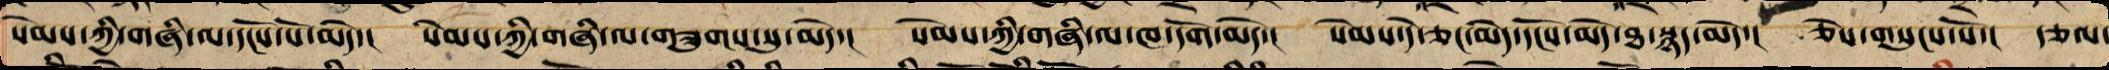སེམས་ཀྱི་གཞི་ལ་དངོས་པོ་མེད་། སེམས་ཀྱི་གཞི་ལ་གཟུགས་སུ་མེད་། སེམས་ཀྱི་གཞི་ལ་ཁ་དོག་མེད་། སེམས་དེ་ཅང་མེད་དངོས་མེད་ཐ་སྙད་མེད་། ཅེས་གསུངས་སོ་། རྩལ་
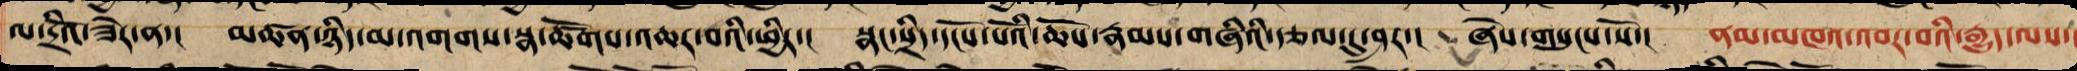ལ་དྲིའོ་ཟེར་བ་ན་། མཚན་ཉིད་མ་འགགས་སྣ་ཚོགས་འཆར་བའི་ཕྱིར་། སྣང་སྲིད་དངོས་པོའི་ཆོས་རྣམས་གཞིའི་རྩལ་དུ་ཤར་། ཞེས་གསུངས་སོ་། ནམ་མཁའ་འབར་བའི་རྒྱུད་ལས་།
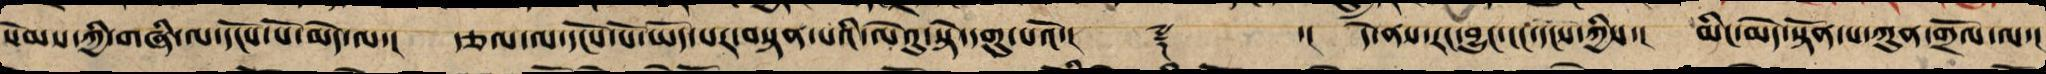སེམས་ཀྱི་གཞི་ལ་དངོས་པོ་མེད་ལ་། རྩལ་ལ་དངོས་པོ་ཡོད་པར་བསྟན་པའི་ལེའུ་སྟེ་དགུ་པའོ་།། ༈ ་།། དེ་ནས་རང་བྱུང་ངང་དངས་ཀྱིས་། མིང་མེད་སྟོན་པ་ཀུན་གྲོལ་ལ་།
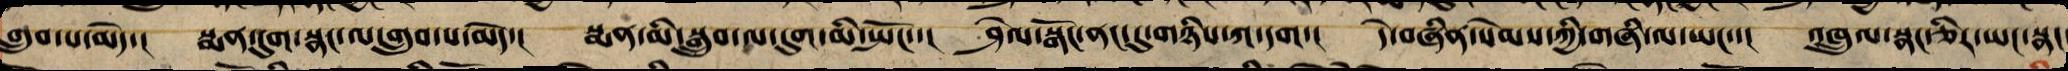གྲུབ་པ་མེད་། སྨན་དུག་སྣང་ལ་གྲུབ་པ་མེད་། སྨན་མི་བསྒྲུབ་ལ་དུག་མི་སྤོང་་། ཤེལ་སྒོང་ནང་དུ་གཉིས་ཀ་དག་། དེ་བཞིན་སེམས་ཀྱི་གཞི་ལ་ཡང་་། འཁྲུལ་སྣང་ཅིར་ཡང་སྣང་
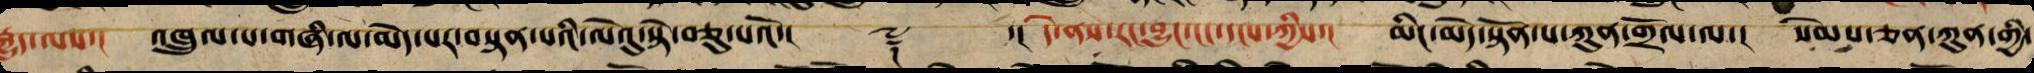རྒྱུད་ལས་། འཁྲུལ་པ་གཞི་ལ་མེད་པར་བསྟན་པའི་ལེའུ་སྟེ་བཅུ་པའོ་།། ༈ ་།། དེ་ནས་རང་བྱུང་ངང་དངས་ཀྱིས་། མིང་མེད་སྟོན་པ་ཀུན་གྲོལ་ལ་། སེམས་ཅན་ཀུན་གྱི་
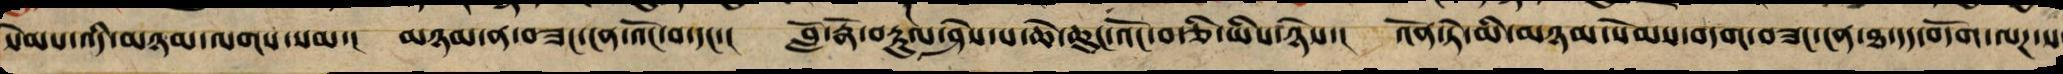སེམས་འདི་མཉམ་ལགས་སམ་། མཉམ་ན་བཟང་ངན་འོང་བ་དང་་། བློ་རྣོ་རྟུལ་ཤེས་པ་ཆེ་ཆུང་འོང་བ་ཅི་ཡིས་ཉེས་། འོན་ཏེ་མི་མཉམ་སེམས་བདག་བཟང་ངན་ཐ་དད་བདོག་ལཌ་ས
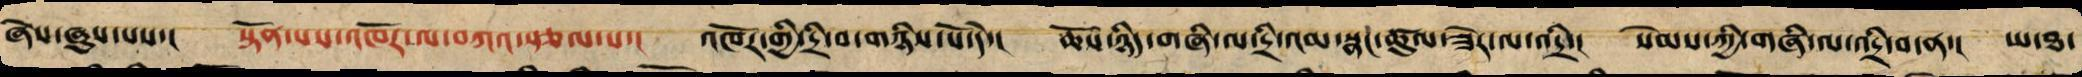ཞེས་ཞུས་པས་། སྟོན་པས་འཁོར་ལ་བཀའ་སྩལ་པ་། འཁོར་གྱི་དྲི་བ་གཉིས་པོ་དེ་། ཆོས་ཉིད་གཞི་ལ་དྲི་འམ་སྣང་ཚུལ་ཟེར་ལ་འདྲི་། སེམས་ཀྱི་གཞི་ལ་འདྲི་བ་ན་། ཡ་ཐ་
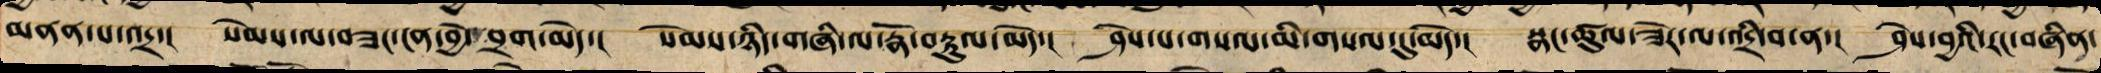མནན་པ་འདྲ་། སེམས་ལ་བཟང་ངན་བྱེ་བྲག་མེད་། སེམས་ཉིད་གཞི་ལ་རྣོ་རྟུལ་མེད་། ཤེས་པ་གསལ་མི་གསལ་དུ་མེད་། སྣང་ཚུལ་ཟེར་ལ་འདྲི་བ་ན་། ཤེས་བྱའི་རང་བཞིན་
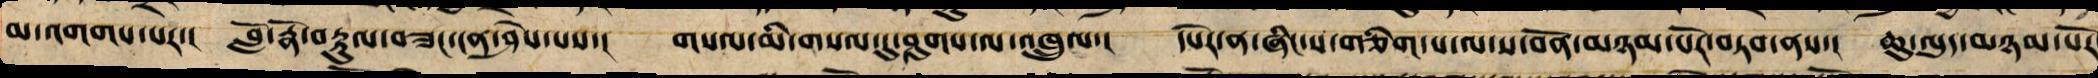མ་འགགས་པར་། བློ་རྣོ་བརྟུལ་བཟང་ངན་ཤེས་པས་། གསལ་མི་གསལ་དུ་ཤུགས་ལས་འཁྲུལ་། དཔེར་ན་ཞིང་ས་གཅིག་པ་ལ་ས་བོན་མཉམ་པོར་བཏབ་ནས་། ཆུ་ལུད་མཉམ་པོར
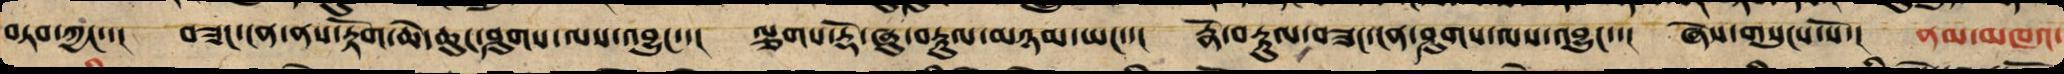བཏབ་ཀྱང་་། བཟང་ངན་ནས་རྟོག་ཆེ་ཆུང་ཤུགས་ལས་འབྱུང་་། ལྕགས་རྡོ་ཞུ་བརྡུལ་མཉམ་ཡང་་། རྣོ་བརྟུལ་བཟང་ངན་ཤུགས་ལས་འབྱུང་་། ཞེས་གསུངས་སོ་། ནམ་མཁའ་
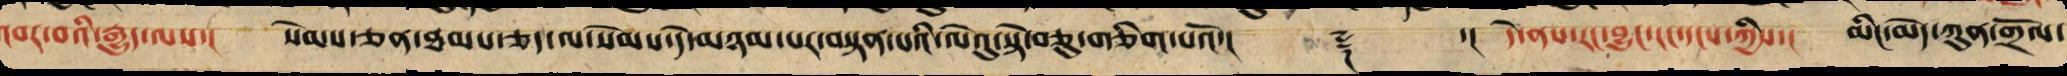འབར་བའི་རྒྱུད་ལས་། སེམས་ཅན་ཐམས་ཅད་ལ་སེམས་དེ་མཉམ་པར་བསྟན་པའི་ལེའུ་སྟེ་བཅུ་གཅིག་པའོ་།། ༈ ་།། དེ་ནས་རང་བྱུང་རང་དངས་ཀྱིས་། མིང་མེད་ཀུན་གྲོལ་
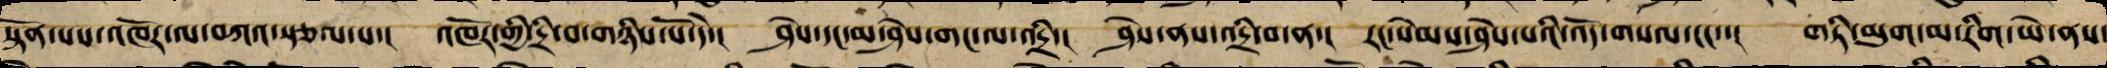སྟོན་པས་འཁོར་ལ་བཀའ་སྩལ་པ་། འཁོར་གྱི་དྲི་བ་གཉིས་པོ་དེ་། ཤེས་དང་མ་ཤེས་གང་ལ་འདྲི་། ཤེས་པ་དག་ལ་འདྲི་བ་ན་། རང་སེམས་ཤེས་པའི་འོད་གསལ་དང་་། གཏི་མུག་མ་རིག་ཡེ་ནས་
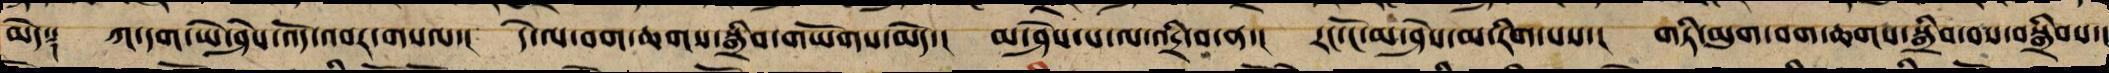མེད༑ ཀ་དག་ཡེ་ཤེས་འོད་འབར་གསལ་། དེ་ལ་བག་ཆགས་སྒྲིབ་གཡོགས་མེད་། མ་ཤེས་པ་ལ་འདྲི་བ་ན་། རང་ངོ་མ་ཤེས་མ་རིག་པས་། གཏི་མུག་བག་ཆགས་སྒྲིབ་པས་བསྒྲིབས་།
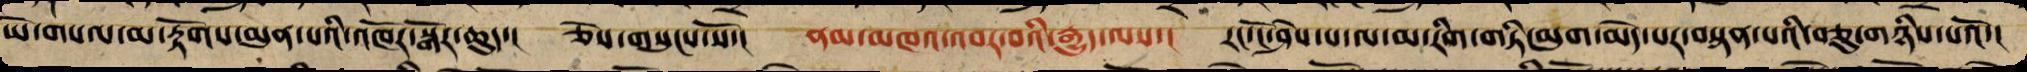ཡེ་གསལ་མ་རྟོགས་མུན་པའི་འཁོར་སྒོར་ཆུ་ད། ཅེས་གསུངས་སོ་། ནམ་མཁའ་འབར་བའི་རྒྱུད་ལས་། རང་ངོ་ཤེས་པ་ལ་མ་རིག་གཏི་མུག་མེད་པར་བསྟན་པའི་ལེའུ་སྟེ་བཅུ་གཉིས་པའོ་།།
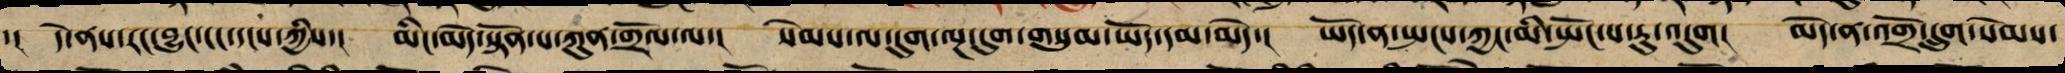་།། དེ་ནས་རང་བྱུང་ངང་དངས་ཀྱིས་། མིང་མེད་སྟོན་པ་ཀུན་གྲོལ་ལ་། སེམས་ལ་དུག་ལྔ་དུག་གསུམ་ཡོད་དམ་མེད་། ཡོད་ན་སྤངས་ཀྱང་མི་སྤོང་པ་རུ་འདུག། མེད་ན་འགྲོ་དྲུག་སེམས་
